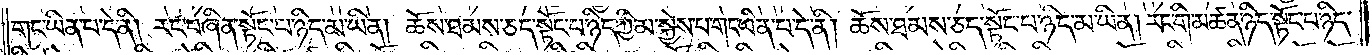གང་ཡིན་པ་དེ་ནི། རང་བཞིན་སྟོང་པ་ཉིད་མ་ཡིན། ཆོས་ཐམས་ཅད་སྟོང་པ་ཉིད་ཀྱི་མ་སྐྱེས་པ་གང་ཡིན་པ་དེ་ནི། ཆོས་ཐམས་ཅད་སྟོང་པ་ཉིད་མ་ཡིན། རང་གི་མཚན་ཉིད་སྟོང་པ་ཉིད་
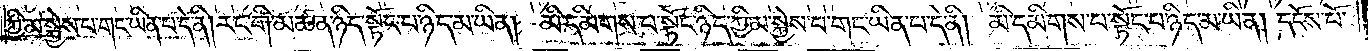ཀྱི་མ་སྐྱེས་པ་གང་ཡིན་པ་དེ་ནི། རང་གི་མཚན་ཉིད་སྟོང་པ་ཉིད་མ་ཡིན། མི་དམིགས་པ་སྟོང་པ་ཉིད་ཀྱི་མ་སྐྱེས་པ་གང་ཡིན་པ་དེ་ནི། མི་དམིགས་པ་སྟོང་པ་ཉིད་མ་ཡིན། དངོས་པོ་
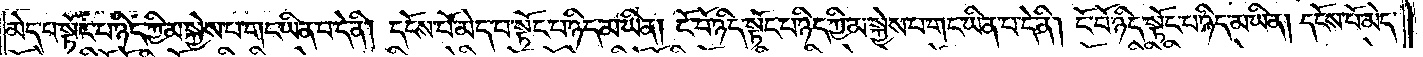མེད་པ་སྟོང་པ་ཉིད་ཀྱི་མ་སྐྱེས་པ་གང་ཡིན་པ་དེ་ནི། དངོས་པོ་མེད་པ་སྟོང་པ་ཉིད་མ་ཡིན། ངོ་བོ་ཉིད་སྟོང་པ་ཉིད་ཀྱི་མ་སྐྱེས་པ་གང་ཡིན་པ་དེ་ནི། ངོ་བོ་ཉིད་སྟོང་པ་ཉིད་མ་ཡིན། དངོས་པོ་མེད་
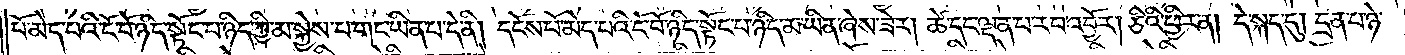པའི་ངོ་བོ་ཉིད་སྟོང་པ་ཉིད་ཀྱི་མ་སྐྱེས་པ་གང་ཡིན་པ་དེ་ནི། དངོས་པོ་མེད་པའི་ངོ་བོ་ཉིད་སྟོང་པ་ཉིད་མ་ཡིན་ཞེས་ཟེར། ཚེ་དང་ལྡན་པ་རབ་འབྱོར། ཅིའི་ཕྱིར་ན། དེ་སྐད་དུ། དྲན་པ་ཉེ་
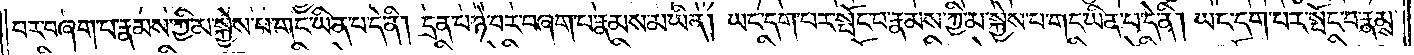བར་བཞག་པ་རྣམས་ཀྱི་མ་སྐྱེས་པ་གང་ཡིན་པ་དེ་ནི། དྲན་པ་ཉེ་བར་བཞག་པ་རྣམས་མ་ཡིན། ཡང་དག་པར་སྤོང་བ་རྣམས་ཀྱི་མ་སྐྱེས་པ་གང་ཡིན་པ་དེ་ནི། ཡང་དག་པར་སྤོང་བ་རྣམས་
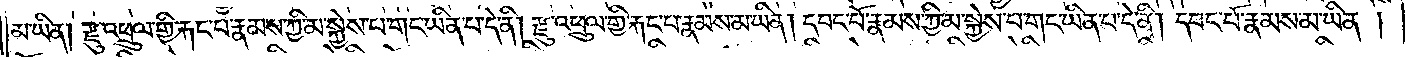མ་ཡིན། རྫུ་འཕྲུལ་གྱི་རྐང་པ་རྣམས་ཀྱི་མ་སྐྱེས་པ་གང་ཡིན་པ་དེ་ནི། རྫུ་འཕྲུལ་གྱི་རྐང་པ་རྣམས་མ་ཡིན། དབང་པོ་རྣམས་ཀྱི་མ་སྐྱེས་པ་གང་ཡིན་པ་དེ་ནི། དབང་པོ་རྣམས་མ་ཡིན།
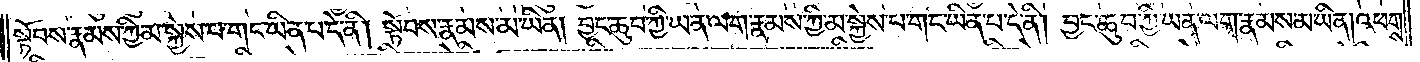སྟོབས་རྣམས་ཀྱི་མ་སྐྱེས་པ་གང་ཡིན་པ་དེ་ནི། སྟོབས་རྣམས་མ་ཡིན། བྱང་ཆུབ་ཀྱི་ཡན་ལག་རྣམས་ཀྱི་མ་སྐྱེས་པ་གང་ཡིན་པ་དེ་ནི། བྱང་ཆུབ་ཀྱི་ཡན་ལག་རྣམས་མ་ཡིན། འཕགས་
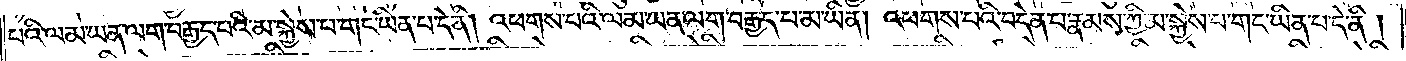པའི་ལམ་ཡན་ལག་བརྒྱད་པའི་མ་སྐྱེས་པ་གང་ཡིན་པ་དེ་ནི། འཕགས་པའི་ལམ་ཡན་ལག་བརྒྱད་པ་མ་ཡིན།འཕགས་པའི་བདེན་པ་རྣམས་ཀྱི་མ་སྐྱེས་པ་གང་ཡིན་པ་དེ་ནི།
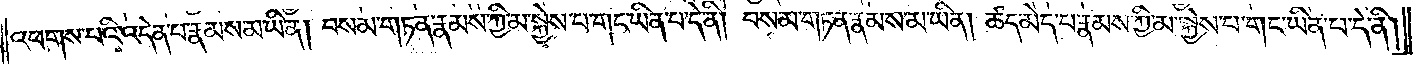འཕགས་པའི་བདེན་པ་རྣམས་མ་ཡིན། བསམ་གཏན་རྣམས་ཀྱི་མ་སྐྱེས་པ་གང་ཡིན་པ་དེ་ནི། བསམ་གཏན་རྣམས་མ་ཡིན། ཚད་མེད་པ་རྣམས་ཀྱི་མ་སྐྱེས་པ་གང་ཡིན་པ་དེ་ནི།
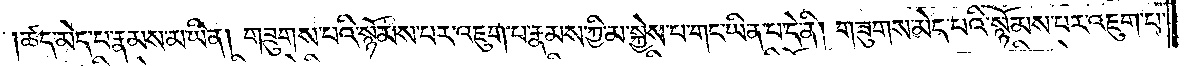ཚད་མེད་པ་རྣམས་མ་ཡིན། གཟུགས་པའི་སྙོམས་པར་འཇུག་པ་རྣམས་ཀྱི་མ་སྐྱེས་པ་གང་ཡིན་པ་དེ་ནི། གཟུགས་མེད་པའི་སྙོམས་པར་འཇུག་པ་
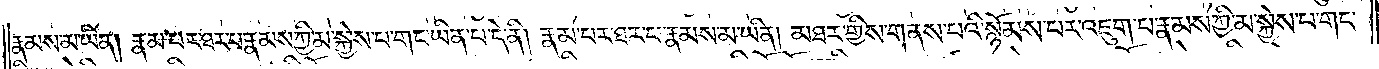རྣམས་མ་ཡིན། རྣམ་པར་ཐར་པ་རྣམས་ཀྱི་མ་སྐྱེས་པ་གང་ཡིན་པ་དེ་ནི། རྣམ་པར་ཐར་པ་རྣམས་མ་ཡིན། མཐར་གྱིས་གནས་པའི་སྙོམས་པར་འཇུག་པ་རྣམས་ཀྱི་མ་སྐྱེས་པ་གང་
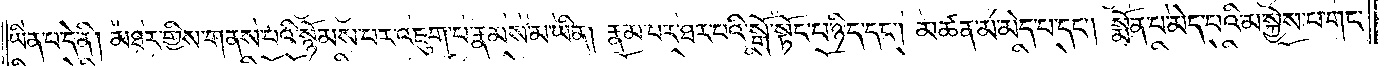ཡིན་པ་དེ་ནི། མཐར་གྱིས་གནས་པའི་སྙོམས་པར་འཇུག་པ་རྣམས་མ་ཡིན། རྣམ་པར་ཐར་པའི་སྒོ་སྟོང་པ་ཉིད་དང༌། མཚན་མ་མེད་པ་དང༌། སྨོན་པ་མེད་པའི་མ་སྐྱེས་པ་གང་
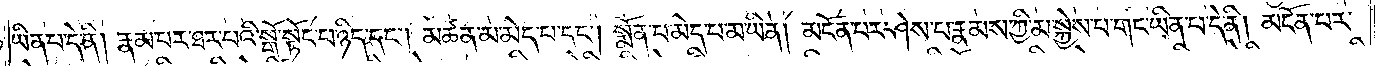ཡིན་པ་དེ་ནི། རྣམ་པར་ཐར་པའི་སྒོ་སྟོང་པ་ཉིད་དང༌། མཚན་མ་མེད་པ་དང༌། སྨོན་པ་མེད་པ་མ་ཡིན། མངོན་པར་ཤེས་པ་རྣམས་ཀྱི་མ་སྐྱེས་པ་གང་ཡིན་པ་དེ་ནི། མངོན་པར་
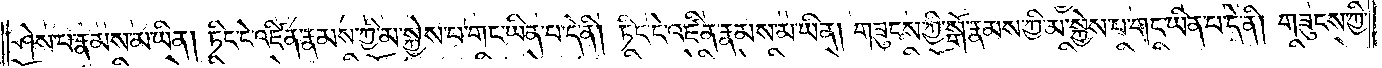ཤེས་པ་རྣམས་མ་ཡིན། ཏིང་ངེ་འཛིན་རྣམས་ཀྱི་མ་སྐྱེས་པ་གང་ཡིན་པ་དེ་ནི། ཏིང་ངེ་འཛིན་རྣམས་མ་ཡིན། གཟུངས་ཀྱི་སྒོ་རྣམས་ཀྱི་མ་སྐྱེས་པ་གང་ཡིན་པ་དེ་ནི། གཟུངས་ཀྱི་
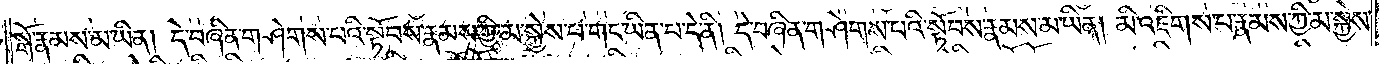སྒོ་རྣམས་མ་ཡིན། དེ་བཞིན་གཤེགས་པའི་སྟོབས་རྣམས་ཀྱི་མ་སྐྱེས་པ་གང་ཡིན་པ་དེ་ནི། དེ་བཞིན་གཤེགས་པའི་སྟོབས་རྣམས་མ་ཡིན། མི་འཇིགས་པ་རྣམས་ཀྱི་མ་སྐྱེས་
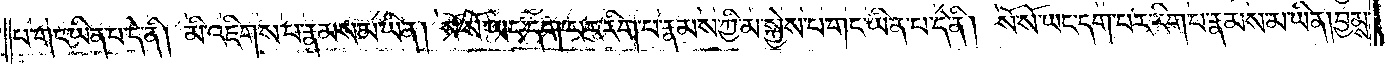པ་གང་ཡིན་པ་དེ་ནི། མི་འཇིགས་པ་རྣམས་མ་ཡིན། སོ་སོ་ཡང་དག་པར་རིག་པ་རྣམས་ཀྱི་མ་སྐྱེས་པ་གང་ཡིན་པ་དེ་ནི། སོ་སོ་ཡང་དག་པར་རིག་པ་རྣམས་མ་ཡིན། བྱམས་
